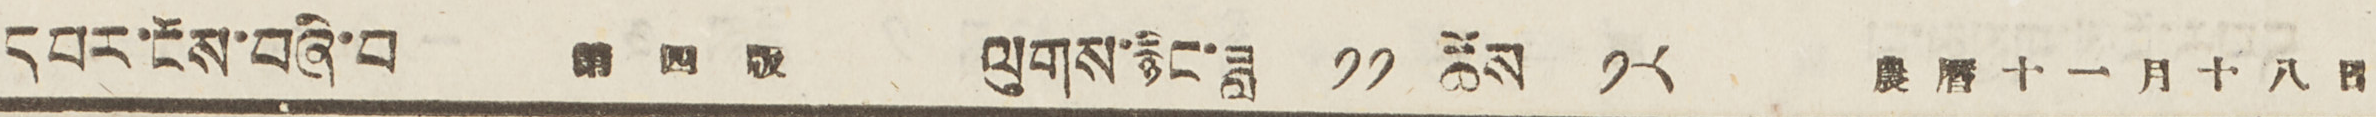དཔར་ངོས་བཞི་པ 第 四 版 ལུགས་རྙིང་ཟླ ༡༡ ཚེས ༡༨ 農 曆 十一 月 十 八 日
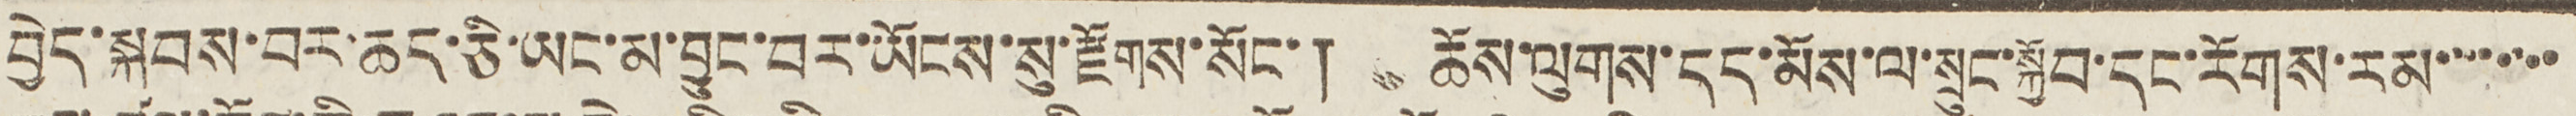བྱེད་སྐབས་བར་ཆད་ཅི་ཡང་མ་བྱུང་བར་ཡོངས་སུ་རྫོགས་སོང་། ཆོས་ལུགས་དད་མོས་ལ་སྲུང་སྐྱོབ་དང་རོགས་རམ་་་་་་་་
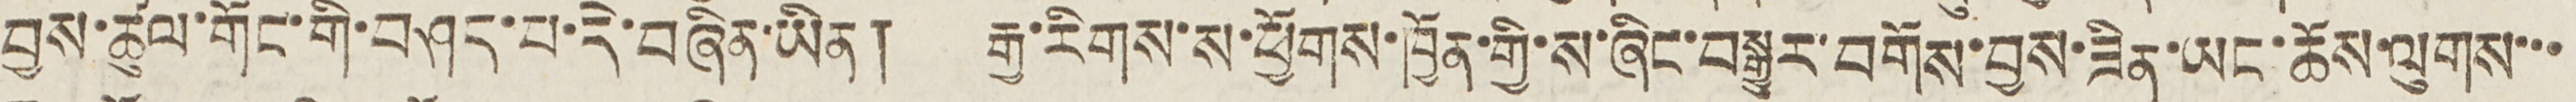བྱས་ཚུལ་གོང་གི་བཤད་པ་དེ་བཞིན་ཡིན། རྒྱ་རིགས་ས་ཕྱོགས་ཁྱོན་གྱི་ས་ཞིང་བསྒྱུར་བགོས་བྱས་ཟིན་ཡང་ཆོས་ལུགས་་་
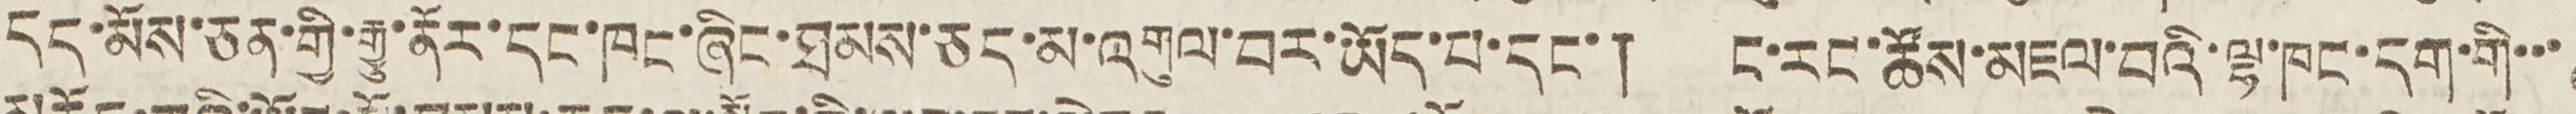དད་མོས་ཅན་གྱི་རྒྱུ་ནོར་དང་ཁང་ཞིང་ཐམས་ཅད་མ་འགུལ་བར་ཡོད་པ་དང་། ང་རང་ཚོས་མཇལ་བའི་ལྷ་ཁང་དག་གི་་་
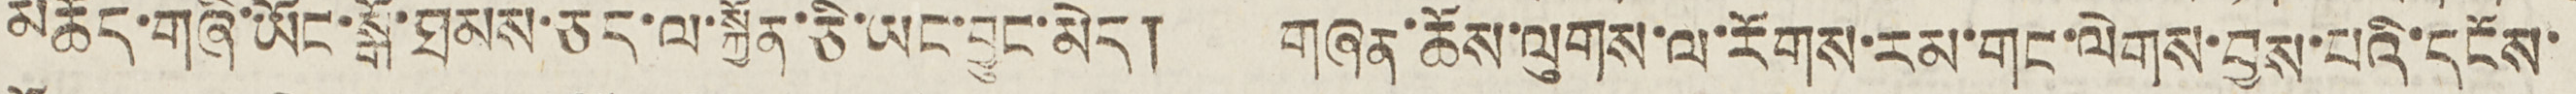མཆོད་གཞི་ཡོང་སྒོ་ཐམས་ཅད་ལ་སྐྱོན་ཅི་ཡང་བྱུང་མེད། གཞན་ཆོས་ལུགས་ལ་རོགས་རམ་གང་ལེགས་བྱས་པའི་དངོས་
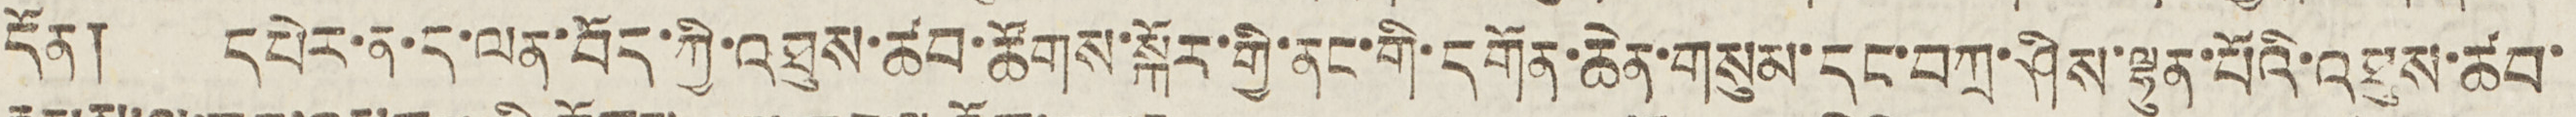དོན། དཔེར་ན་ད་ལན་བོད་ཀྱི་འཐུས་ཚབ་ཚོགས་སྐོར་གྱི་ནང་གི་དགོན་ཆེན་གསུམ་དང་བཀྲ་ཤིས་ལྷུན་པོའི་འཐུས་ཚབ་
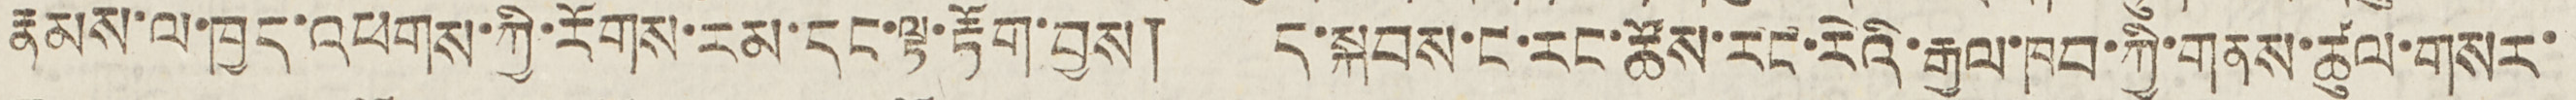རྣམས་ལ་ཁྱད་འཕགས་ཀྱི་རོགས་རམ་དང་ལྟ་རྟོག་བྱས། ད་སྐབས་ང་རང་ཚོས་རང་རེའི་རྒྱལ་ཁབ་ཀྱི་གནས་ཚུལ་གསར་
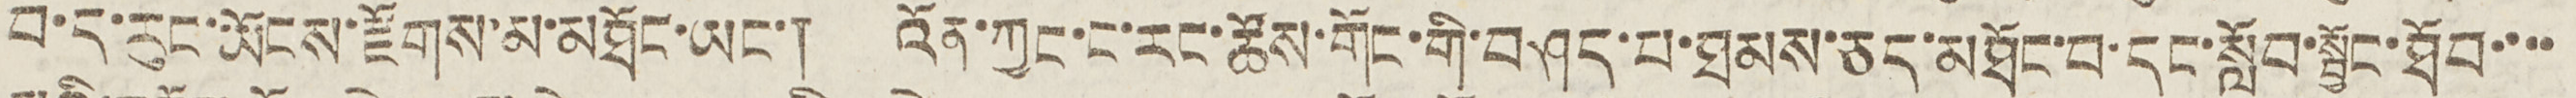བ་ད་རུང་ཡོངས་རྫོགས་མ་མཐོང་ཡང་། འོན་ཀྱང་ང་རང་ཚོས་གོང་གི་བཤད་པ་ཐམས་ཅད་མཐོང་བ་དང་སློབ་སྦྱོང་ཐོབ་་་་
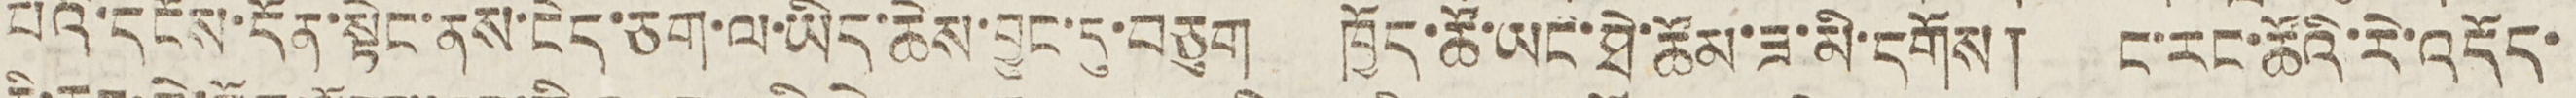པའི་དངོས་དོན་སྟེང་ནས་ངེད་ཅག་ལ་ཡིད་ཆེས་བྱུང་དུ་བཅུག ཁྱོད་ཚོ་ཡང་ཐེ་ཚོམ་ཟ་མི་དགོས། ང་རང་ཚོའི་རེ་འདོད་
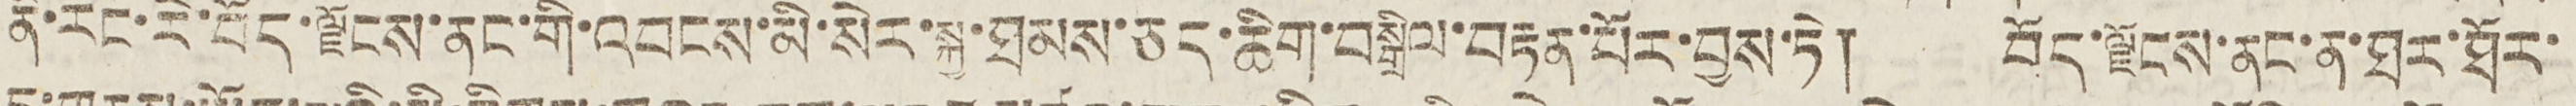ནི་རང་རེ་བོད་ལྗོངས་ནང་གི་འབངས་མི་སེར་སྐྱ་ཐམས་ཅད་ཆིག་བསྒྲིལ་བརྟན་པོར་བྱས་ཏེ། བོད་ལྗོངས་ནང་ན་ཐར་ཐོར་
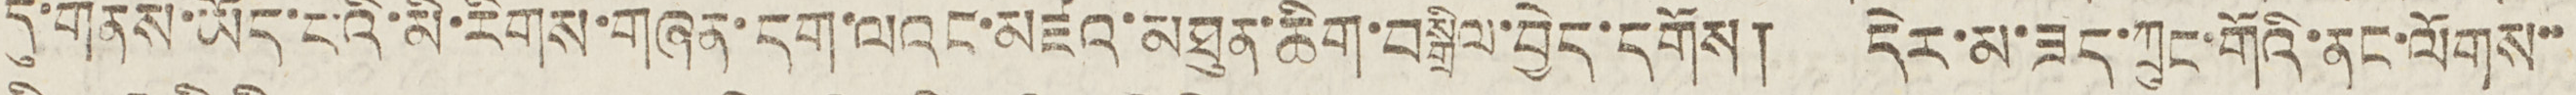དུ་གནས་ཡོད་པའི་མི་རིགས་གཞན་དག་ལའང་མཛའ་མཐུན་ཆིག་བསྒྲིལ་བྱེད་དགོས། དེར་མ་ཟད་ཀྲུང་གོའི་ནང་ལོགས་་
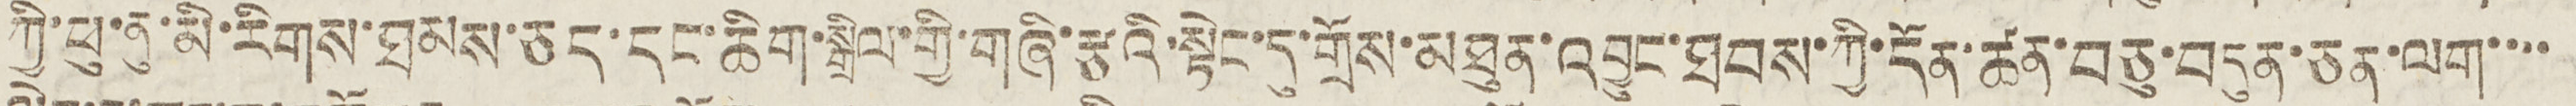ཀྱི་ཕུ་ནུ་མི་རིགས་ཐམས་ཅད་དང་ཆིག་སྒྲིལ་གྱི་གཞི་རྩའི་སྟེང་དུ་གྲོས་མཐུན་འབྱུང་ཐབས་ཀྱི་དོན་ཚན་བཅུ་བདུན་ཅན་ལག་་་་
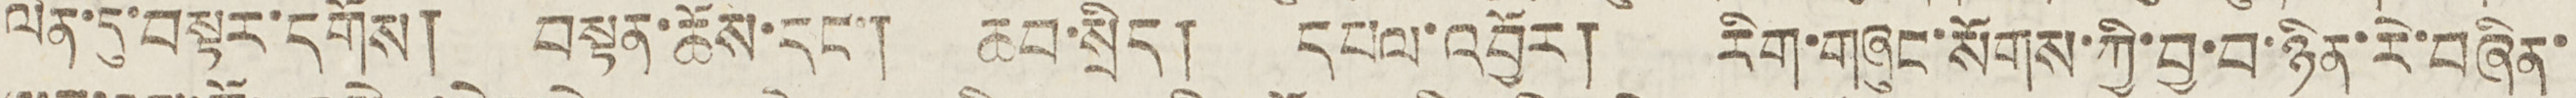ལེན་དུ་བསྟར་དགོས། བསྟན་ཆོས་དང་། ཆབ་སྲིད། དཔལ་འབྱོར། རིག་གཞུང་སོགས་ཀྱི་བྱ་བ་ཉིན་རེ་བཞིན་
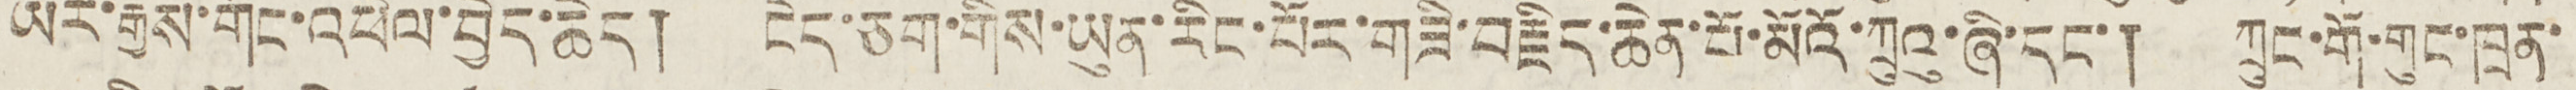ཡར་རྒྱས་གོང་འཕེལ་བྱེད་ཆེད། ངེད་ཅག་གིས་ཡུན་རིང་པོར་གཟི་བརྗིད་ཆེན་པོ་མོའོ་ཀྲུའུ་ཞི་དང་། ཀྲུང་གོ་གུང་ཁྲན་
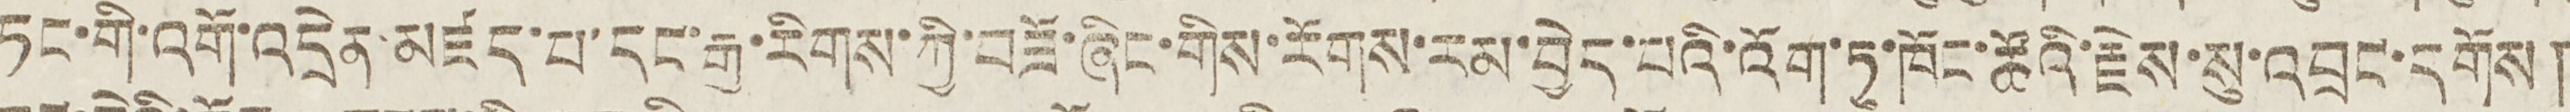ཏང་གི་འགོ་འདྲེན་མཛད་པ་དང་རྒྱ་རིགས་ཀྱི་བཟོ་ཞིང་གིས་རོགས་རམ་བྱེད་པའི་འོག་ཏུ་ཁོང་ཚོའི་རྗེས་སུ་འབྲང་དགོས།
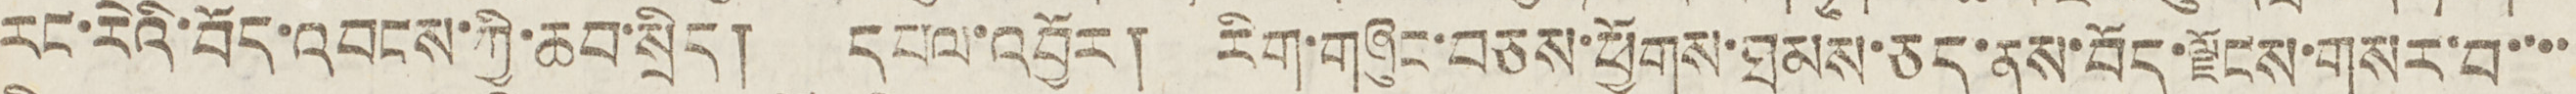རང་རེའི་བོད་འབངས་ཀྱི་ཆབ་སྲིད། དཔལ་འབྱོར། རིག་གཞུང་བཅས་ཕྱོགས་ཐམས་ཅད་ནས་བོད་ལྗོངས་གསར་བ་་་་
